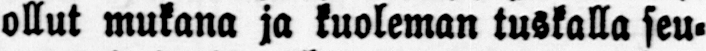ollut mukana ja kuoleman tuskalla seu-
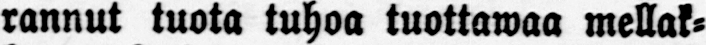rannut tuota tuhoa tuottawaa mellak-
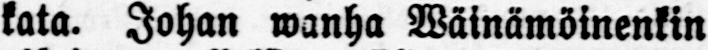kata. Johan wanha Wäinämöinenkin
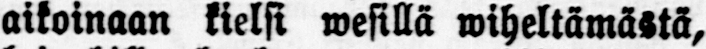aikoinaan kielsi wesillä wiheltämästä,
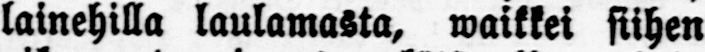lainehilla laulamasta, waikkei siihen
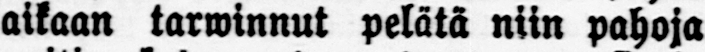aikaan tarvinnut pelätä niin pahoja
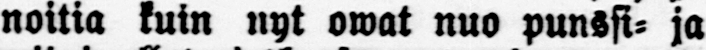noitia kuin nyt owat nuo punssi- ja
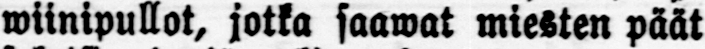wiinipullot, jotka saawat miesten päät
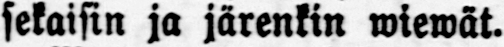sekaisin ja järenkin wiewät.
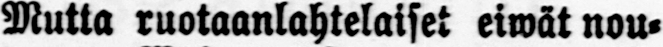Mutta ruotaanlahtelaiset eiwät nou-
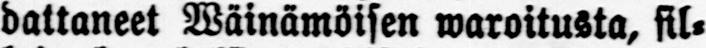dattaneet Wäinämöisen varoitusta, sil-
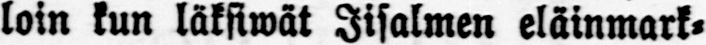loin kun läksimät Iisalmen eläinmark-
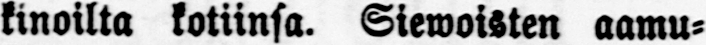kinoilta kotiinsa. Siewoisten aamu-
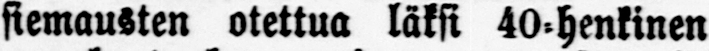siemausten otettua läksi 40-henkinen
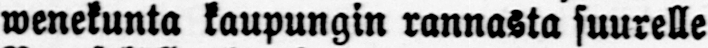wenekunta kaupungin rannasta suurelle
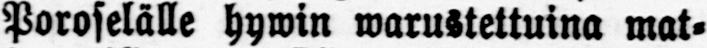Poroselälle hywin warustettuina mat-
